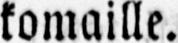komaille.
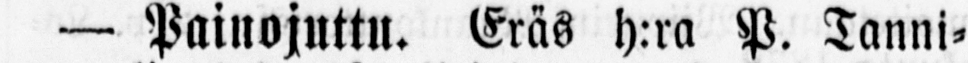— Painojuttu. Eräs h:ra P. Tanni-
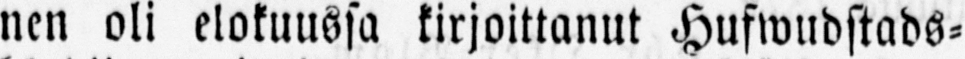nen oli elokuussa kirjoittanut Hufwudstads-
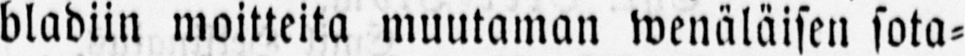bladiin moitteita muutaman wenäläisen sota-
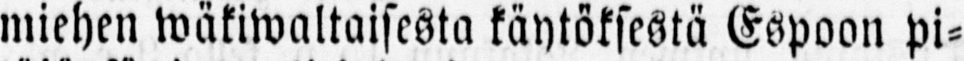miehen wäkiwaltaisesta käytöksestä Espoon pi-
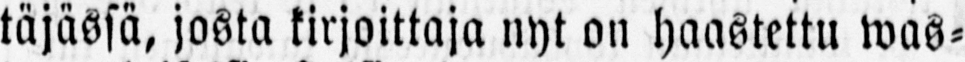täjässä, josta kirjoittaja nyt on haastettu was-
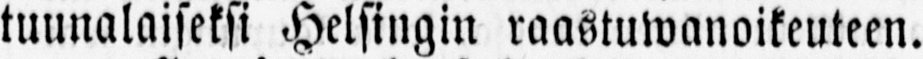tuunalaiseksi Helsingin raastuwanoikeuteen.
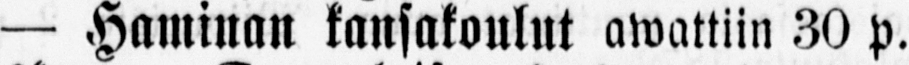— Haminan kansakoulut awattiin 30 p.
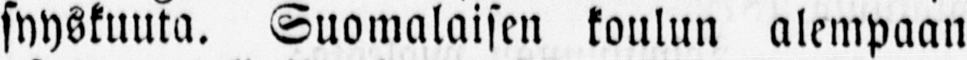syyskuuta. Suomalaisen koulun alempaan
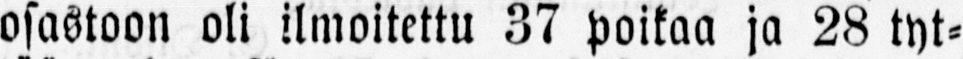osastoon oli ilmoitettu 37 poikaa ja 28 tyt-
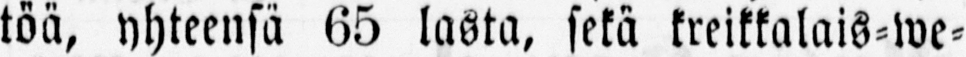töä, yhteensä 65 lasta, sekä kreikkalais-we-
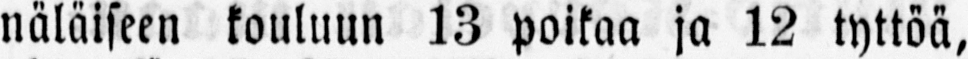näläiseen kouluun 13 poikaa ja 12 tyttöä,
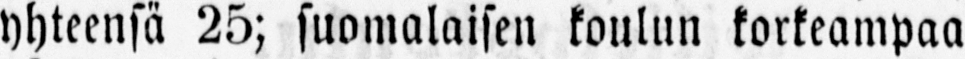yhteensä 25; suomalaisen koulun korkeampaa
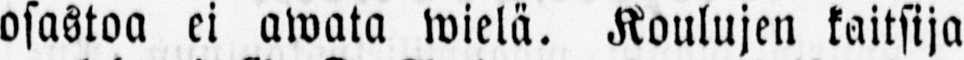osastoa ei awata wielä. Koulujen kaitsija
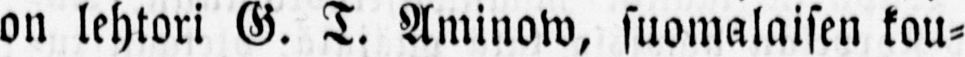on lehtori G. T. Aminow, suomalaisen kou-
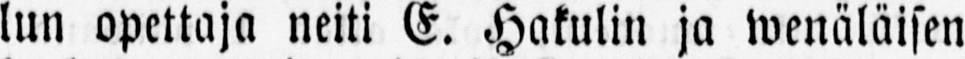lun opettaja neiti E. Hakulin ja wenäläisen
